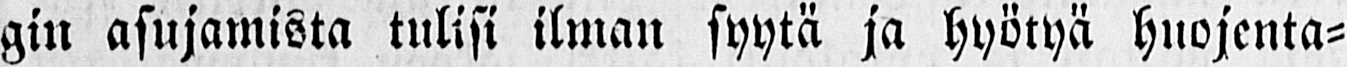gin asujamista tulisi ilman syytä ja hyötyä huojenta-
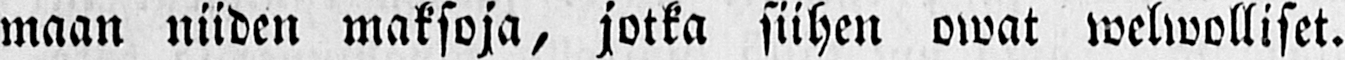maan niiden maksoja, jotka siihen owat welwolliset.
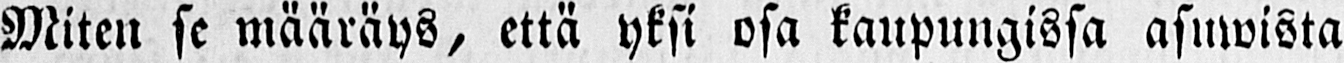Miten se määräys, että yksi osa kaupungissa asuwista
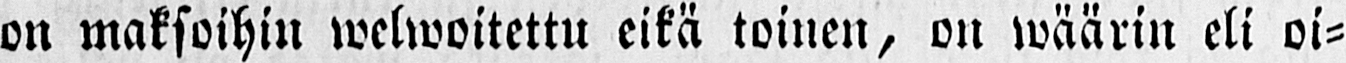on maksoihin welwoitettu eikä toinen, on wäärin eli oi-
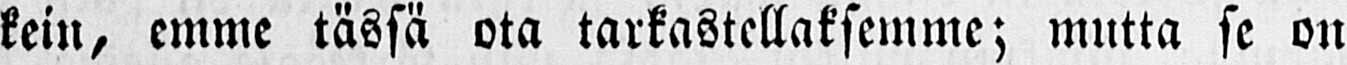kein, emme tässä ota tarkastellaksemme; mutta se on
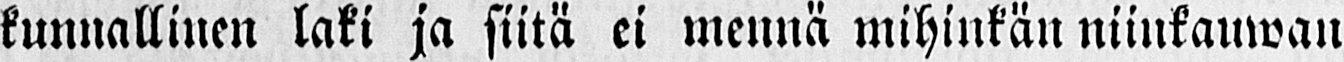kunnallinen laki ja siitä ei mennä mihinkän niinkauwan
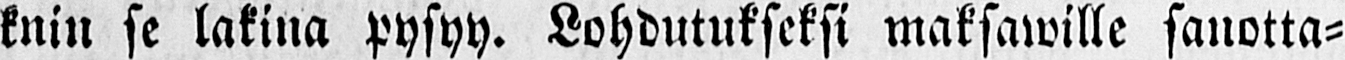knin se lakina pysyy. Lohdutukseksi maksawille sanotta-
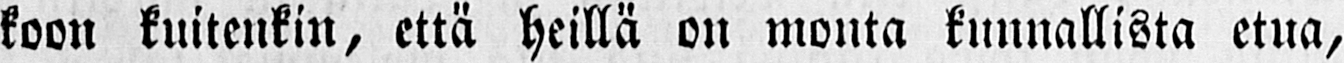koon kuitenkin, että heillä on monta kunnallista etua,
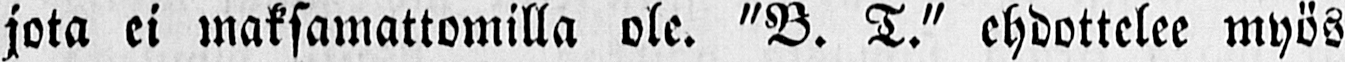jota ei maksamattomilla ole. "B. T." ehdottelee myös
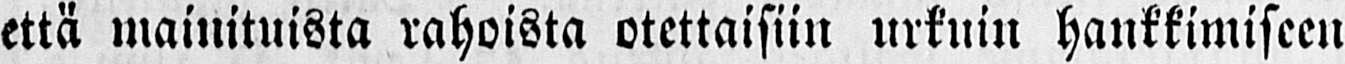että mainituista rahoista otettaisiin urkuin hankkimiseen
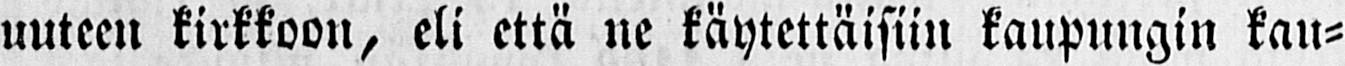uuteen kirkkoon, eli että ne käytettäisiin kaupungin kau-
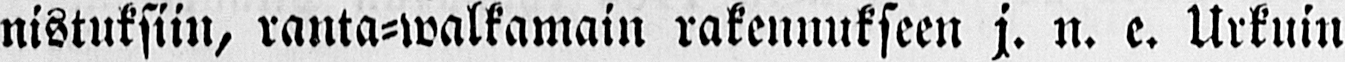nistuksiin, ranta-walkamain rakennukseen j. n. e. Urkuin
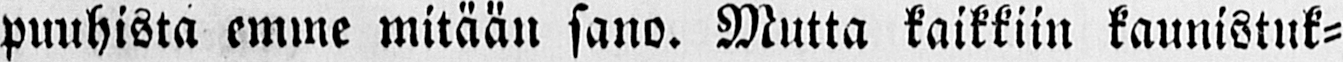puuhista emme mitään sano. Mutta kaikkiin kaunistuk-
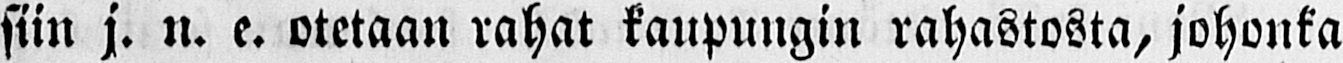siin j. n. e. otetaan rahat kaupungin rahastosta, johonka
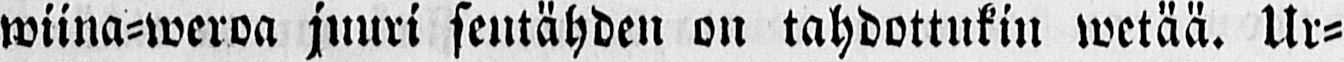wiina-weroa juuri sentähden on tahdottukin wetää. Ur-
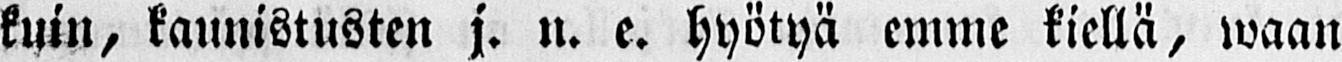kuin, kaunistusten j. n. e. hyötyä emme kiellä, waan
